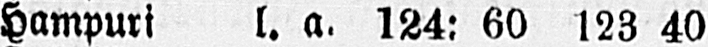Hampuri l. a. 124: 60 123 40
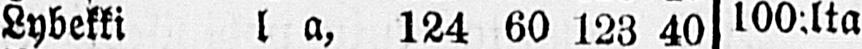Lybekki l a, 124 60 123 40 l00 ;lta
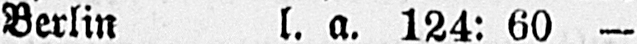Berlin l. a. 124: 60 -
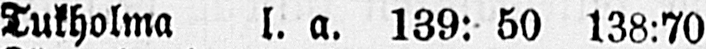Tukholma l. a. 139: 50 138:70
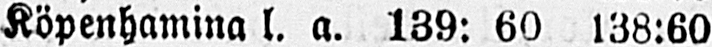Köpenhamina l. a. 139: 60 l38:L0
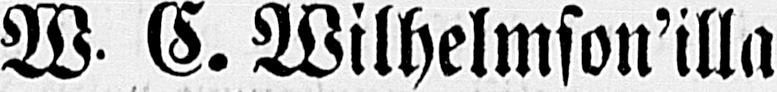W G. Wilhelmson'illa
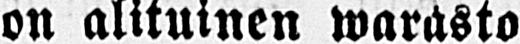on alituinen warasto
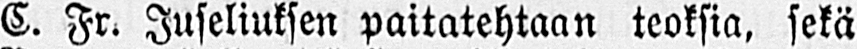C. Fr. Juseliuksen paitatehtaan teoksia, sekä
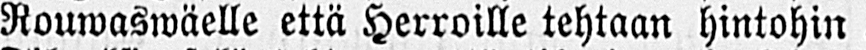Rouwaswäelle että Herroille tehtaan hintohin ,
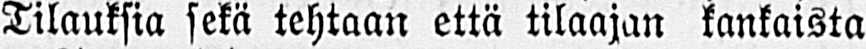Tilauksia sekä tehtaan että tilaajan kankaista
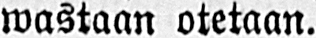wastaan otetaan.
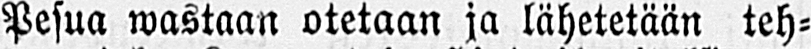Pesua wastaan otetaan ja lähetetään teh-
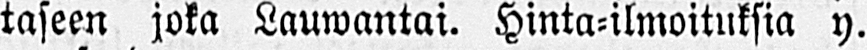taseen joka Lauwantai. Hinta-ilmoituksia y.
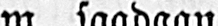m. saadaan
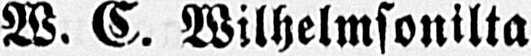W. C. Wilhelmsonilta.
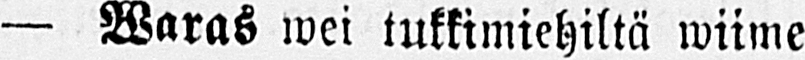— Waras wei tukkimiehiltä wiime
